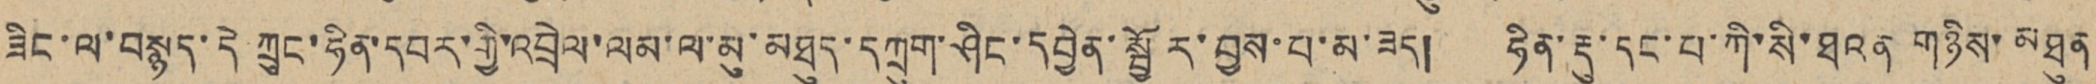ཟིང་ལ་བསྙད་དེ་ཀྲུང་ཧིན་དབར་གྱི་འབྲེལ་ལམ་ལ་མུ་མཐུད་དཀྲུག་ཤིང་དབྱེན་སྦྱོར་བྱས་པ་མ་ཟད། ཧིན་རྡུ་དང་པ་ཀི་སི་ཐའན གཉིས་མཐུན
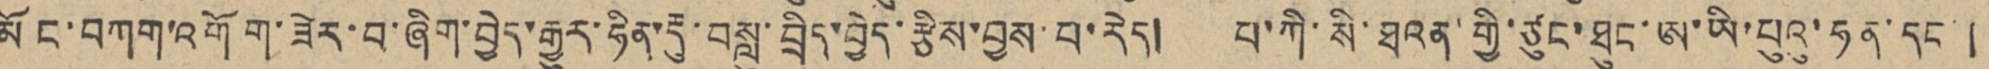མོང་བཀག་འགོག་ཟེར་བ་ཞིག་བྱེད་རྒྱུར་ཧིན་རྡུ་བསླུ་བྲིད་བྱེད་རྩིས་བྱས་པ་རེད། པ་ཀི་སི་ཐའན་གྱི་ཙུང་ཐུང་ཨ་ཡི་པུའུ་ཧན་དང་།
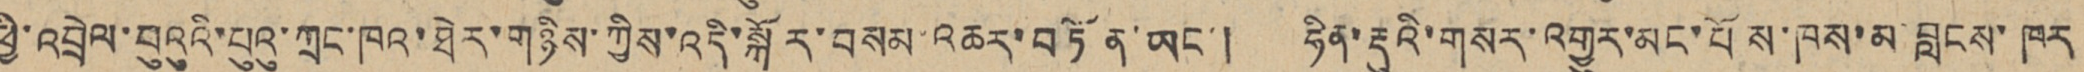ཕྱི་འབྲེལ་པུའུའི་པུའུ་ཀྲང་ཁའ་ཐེར་གཉིས་ཀྱིས་འདི་སྐོར་བསམ་འཆར་བཏོན་ཡང་། ཧིན་རྡུའི་གསར་འགྱུར་མང་པོས་ཁས་མ་བླངས་ཁར
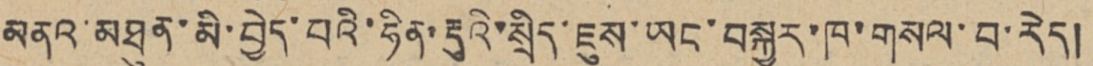མནའ་མཐུན་མི་བྱེད་པའི་ཧིན་རྡུའི་སྲིད་ཇུས་ཡང་བསྐྱར་ཁ་གསལ་བ་རེད།
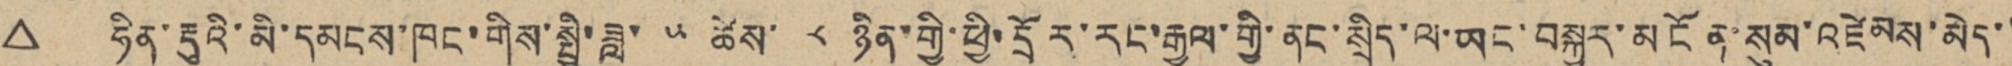△ ཧིན་རྡུའི་མི་དམངས་ཁང་གིས་སྤྱི་ཟླ་ ༥ ཚེས་ ༨ ཉིན་གྱི་ཕྱི་དྲོར་རང་རྒྱལ་གྱི་ནང་སྲིད་ལ་ཡང་བསྐྱར་མངོན་སུམ་འཛེམས་མེད་་
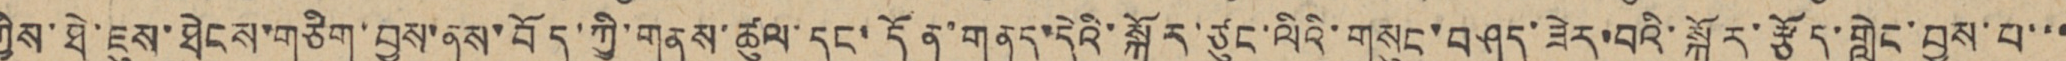ཀྱིས་ཐེ་ཇུས་ཐེངས་གཅིག་བྱས་ནས་བོད་ཀྱི་གནས་ཚུལ་དང་དོན་གནད་དེའི་སྐོར་ཙུང་ལིའི་གསུང་བཤད་ཟེར་བའི་སྐོར་རྩོད་གླེང་བྱས་པ་་་
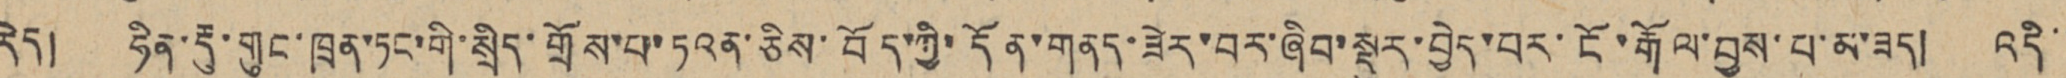རེད། ཧིན་རྡུ་གུང་ཁྲན་ཏང་གི་སྲིད་གྲོས་པ་ཏའན་ཅིས་བོད་ཀྱི་དོན་གནད་ཟེར་བར་ཞིབ་སྡུར་བྱེད་པར་ངོ་རྒོལ་བྱས་པ་མ་ཟད། འདི་་
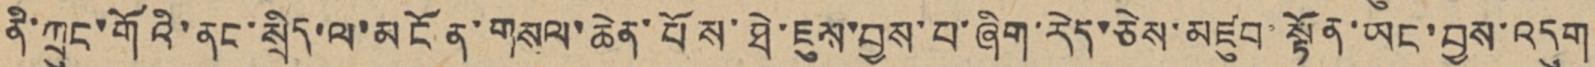ནི་ཀྲུང་གོའི་ནང་སྲིད་ལ་མངོན་གསལ་ཆེན་པོས་ཐེ་ཇུས་བྱས་པ་ཞིག་རེད་ཅེས་མཛུབ་སྟོན་ཡང་བྱས་འདུག
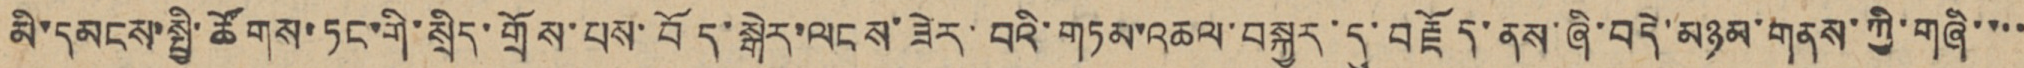མི་དམངས་སྤྱི་ཚོགས་ཏང་གི་སྲིད་གྲོས་པས་བོད་སྒེར་ལངས་ཟེར་བའི་གཏམ་འཆལ་བསྐྱར་དུ་བརྗོད་ནས་ཞི་བདེ་མཉམ་གནས་ཀྱི་གཞི་་་་
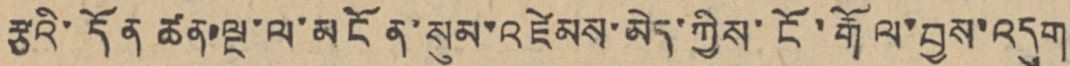རྩའི་དོན ཚན་ལྔ་ལ་མངོན་སུམ་འཛེམས་མེད་ཀྱིས་ངོ་རྒོལ་བྱས་འདུག
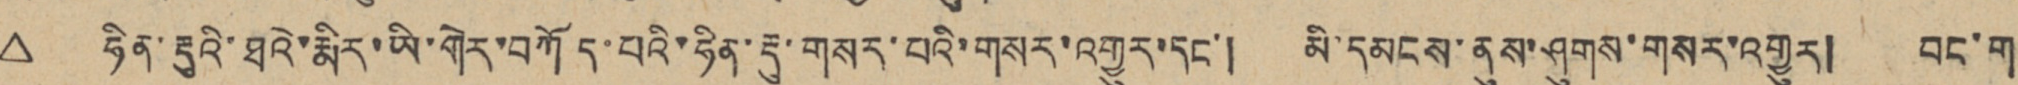△ ཧིན་རྡུའི་ཐའི་རྨིར་ཡི་གེར་བཀོད་པའི་ཧིན་རྡུ་གསར་པའི་གསར་པའི་གསར་འགྱུར་དང་། མི་དམངས་ནུས་ཤུགས་གསར་འགྱུར། བང་ག
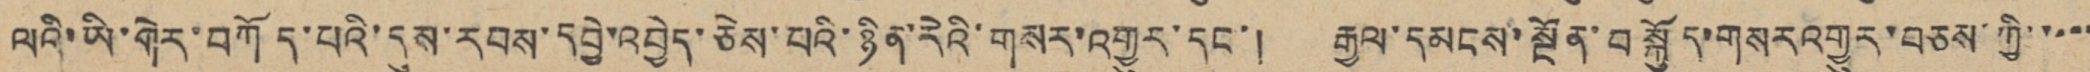ལའི་ཡི་གེར་བཀོད་པའི་དུས་རབས་དབྱེ་འབྱེད་ཅེས་པའི་ཉིན་རེའི་གསར་འགྱུར་དང་། རྒྱལ་དམངས་སྔོན་བསྐྱོད་གསར་འགྱུར་བཅས་ཀྱི་་་་་
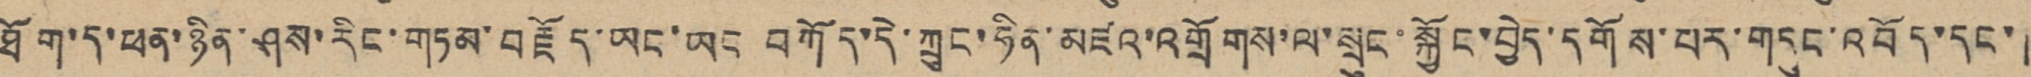ཐོག་ད་ཕན་ཉིན་ཤས་རིང་གཏམ་བརྗོད་ཡང་ཡང བཀོད་དེ་ཀྲུང་ཧིན་མཛའ་འགྲོགས་ལ་སྲུང་སྐྱོང་བྱེད་དགོས་པར་གདུང་འབོད་དང་།
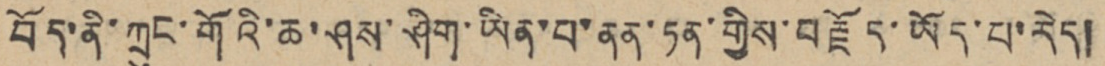བོད་ནི་ཀྲུང་གོའི་ཆ་ཤས་ཤིག་ཡིན་པ་ནན་ཏན་གྱིས་བརྗོད་ཡོད་པ་རེད།
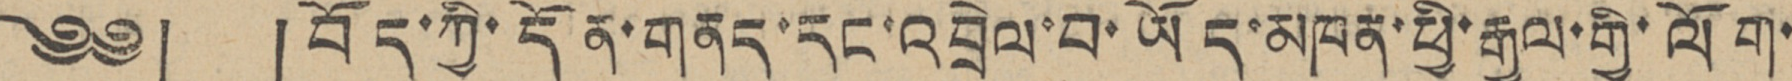༄༅། །བོད་ཀྱི་དོན་གནད་དང་འབྲེལ་བ་ཡོད་མཁན་ཕྱི་རྒྱལ་གྱི་ལོག་
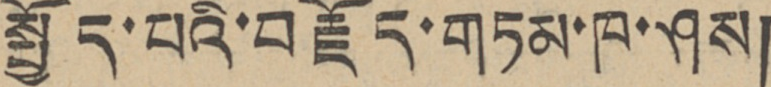སྤྱོད་པའི་བརྗོད་གཏམ་ཁ་ཤས།
